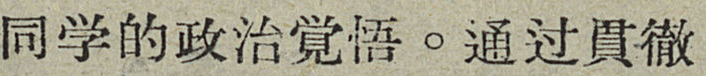同学的政治覚悟。通过貫徹
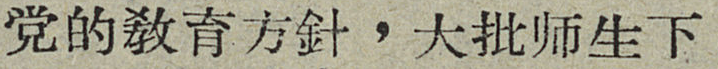党的敎育方針，大批师生下
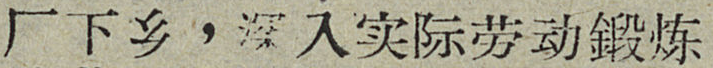厂下乡，深入实际劳动鍛炼
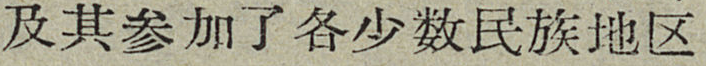及其参加了各少数民族地区
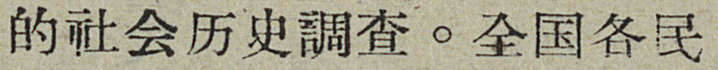的社会历史調查。全国各民
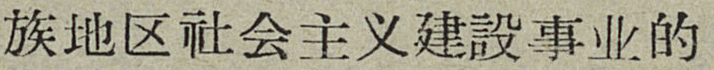族地区社会主义建設事业的
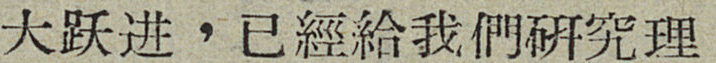大跃进，已經給我們研究理
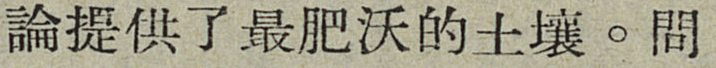論提供了最肥沃的土壤。問
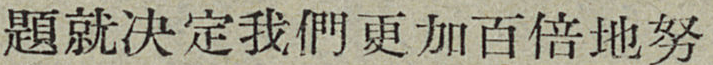題就决定我們更加百倍地努
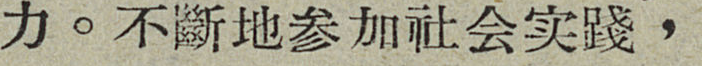力。不斷地参加社会实踐，
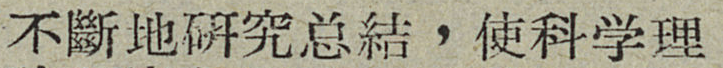不斷地研究总結，使科学理
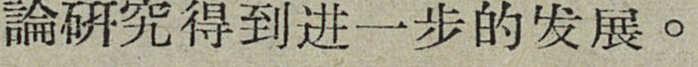論研究得到进一步的发展。
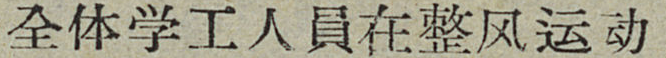全体学工人員在整风运动
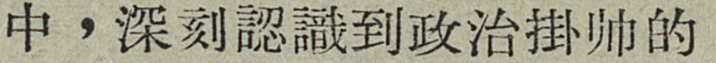中，深刻認識到政治掛帅的
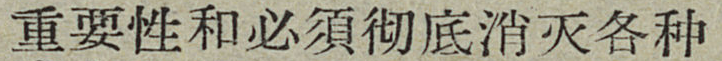重要性和必須彻底消灭各种
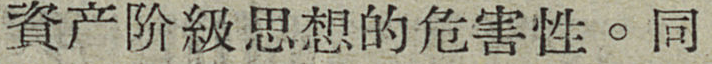資产阶級思想的危害性。同
